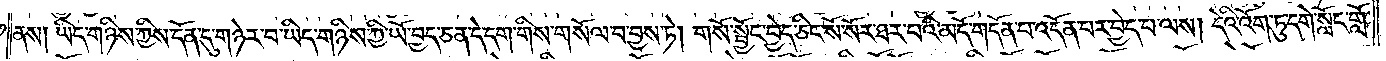ནས། ཡིད་གཉིས་ཀྱིས་དོན་དུ་གཉེར་བ་ཡིད་གཉིས་ཀྱི་ཡོ་བྱད་ཅན་དེ་དག་གིས་གསོལ་བ་བྱས་ཏེ། གསོ་སྦྱོང་བྱེད་ཅིང་སོ་སོར་ཐར་པའི་མདོ་གདོན་པ་འདོན་པར་བྱེད་པ་ལས། དེའི་འོག་ཏུ་དགེ་སློང་གློ་
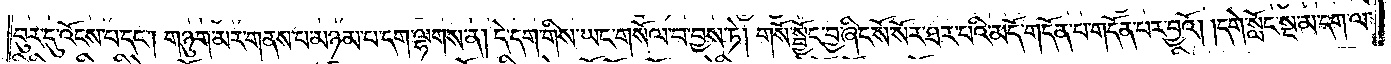བུར་དུ་འོངས་པ་དང༌། གཉུག་མར་གནས་པ་མཉམ་པ་དག་ལྷགས་ན། དེ་དག་གིས་ཡང་གསོལ་བ་བྱས་ཏེ། གསོ་སྦྱོང་བྱ་ཞིང་སོ་སོར་ཐར་པའི་མདོ་གདོན་པ་གདོན་པར་བྱའོ། །དགེ་སློང་སྔ་མ་དག་ལ་
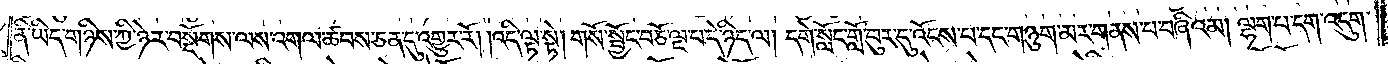ནི་ཡིད་གཉིས་ཀྱི་ཉེར་བསྡོགས་ལས་འགལ་ཚབས་ཅན་དུ་འགྱུར་རོ། །འདི་ལྟ་སྟེ། གསོ་སྦྱོང་བཅོ་ལྔ་པ་དེ་ཉིད་ལ། དགེ་སློང་གློ་བུར་དུ་འོངས་པ་དང་གཉུག་མར་གནས་པ་བཞིའམ། ལྷག་པ་དག་འདུག་
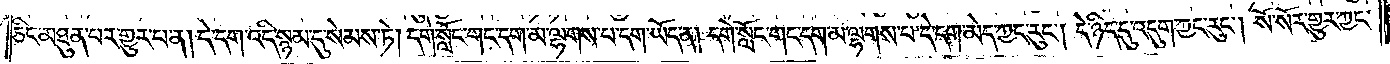ཅིང་མཐུན་པར་གྱུར་པ་ན། དེ་དག་འདི་སྙམ་དུ་སེམས་ཏེ། དགེ་སློང་གང་དག་མ་ལྷགས་པ་དག་ཡོད་ན། དགེ་སློང་གང་དག་མ་ལྷགས་པ་དེ་དག་མེད་ཀྱང་རུང༌། དེ་ཉིད་དུ་འདུག་ཀྱང་རུང༌། སོ་སོར་གྱུར་ཀྱང་
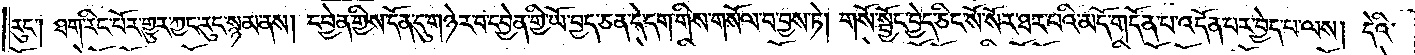རུང༌། ཐག་རིང་པོར་གྱུར་ཀྱང་རུང་སྙམ་ནས། དབྱེན་གྱིས་དོན་དུ་གཉེར་བ་དབྱེན་གྱི་ཡོ་བྱད་ཅན་དེ་དག་གིས་གསོལ་བ་བྱས་ཏེ། གསོ་སྦྱོང་བྱེད་ཅིང་སོ་སོར་ཐར་པའི་མདོ་གདོན་པ་འདོན་པར་བྱེད་པ་ལས། དེའི་
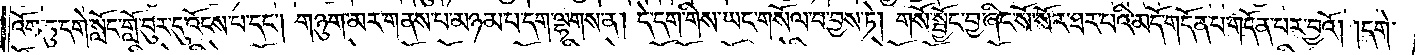འོག་ཏུ་དགེ་སློང་གློ་བུར་དུ་འོངས་པ་དང༌། གཉུག་མར་གནས་པ་མཉམ་པ་དག་ལྷགས་ན། དེ་དག་གིས་ཡང་གསོལ་བ་བྱས་ཏེ། གསོ་སྦྱོང་བྱ་ཞིང་སོ་སོར་ཐར་པའི་མདོ་གདོན་པ་གདོན་པར་བྱའོ། །དགེ་
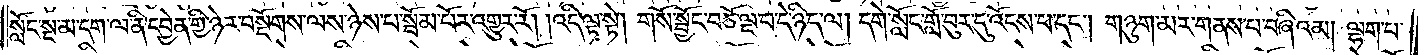སློང་སྔ་མ་དག་ལ་ནི་དབྱེན་གྱི་ཉེར་བསྡོགས་ལས་ཉེས་པ་སྦོམ་པོར་འགྱུར་རོ། །འདི་ལྟ་སྟེ། གསོ་སྦྱོང་བཅོ་ལྔ་པ་དེ་ཉིད་ལ། དགེ་སློང་གློ་བུར་དུ་འོངས་པ་དང༌། གཉུག་མར་གནས་པ་བཞིའམ། ལྷག་པ་
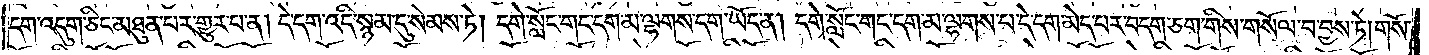དག་འདུག་ཅིང་མཐུན་པར་གྱུར་པ་ན། དེ་དག་འདི་སྙམ་དུ་སེམས་ཏེ། དགེ་སློང་གང་དག་མ་ལྷགས་དག་ཡོད་ན། དགེ་སློང་གང་དག་མ་ལྷགས་པ་དེ་དག་མེད་པར་བདག་ཅག་གིས་གསོལ་བ་བྱས་ཏེ། གསོ་
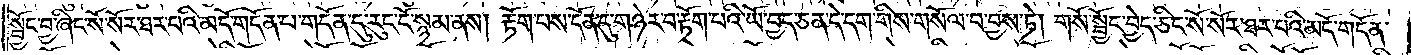སྦྱོང་བྱ་ཞིང་སོ་སོར་ཐར་པའི་མདོ་གདོན་པ་གདོན་དུ་རུང་ངོ་སྙམ་ནས། རྟོག་པས་དོན་དུ་གཉེར་བ་རྟོག་པའི་ཡོ་བྱད་ཅན་དེ་དག་གིས་གསོལ་བ་བྱས་ཏེ། གསོ་སྦྱོང་བྱེད་ཅིང་སོ་སོར་ཐར་བའི་མདོ་གདོན་
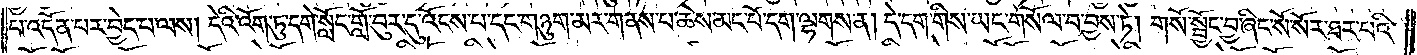པ་འདོན་པར་བྱེད་པ་ལས། དེའི་འོག་ཏུ་དགེ་སློང་གློ་བུར་དུ་འོངས་པ་དང་གཉུག་མར་གནས་པ་ཆེས་མང་པོ་དག་ལྷགས་ན། དེ་དག་གིས་ཡང་གསོལ་བ་བྱས་ཏེ། གསོ་སྦྱོང་བྱ་ཞིང་སོ་སོར་ཐར་པའི་
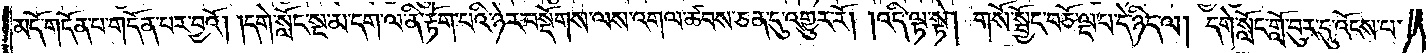མདོ་གདོན་པ་གདོན་པར་བྱའོ། །དགེ་སློང་སྔ་མ་དག་ལ་ནི་རྟོག་པའི་ཉེར་བསྡོགས་ལས་འགལ་ཚབས་ཅན་དུ་འགྱུར་རོ། །འདི་ལྟ་སྟེ། གསོ་སྦྱོང་བཅོ་ལྔ་བ་དེ་ཉིད་ལ། དགེ་སློང་གློ་བུར་དུ་འོངས་པ་
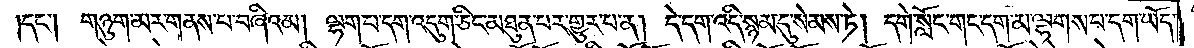།དང༌། གཉུག་མར་གནས་པ་བཞིའམ། ལྷག་པ་དག་འདུག་ཅིང་མཐུན་པར་གྱུར་པ་ན། དེ་དག་འདི་སྙམ་དུ་སེམས་ཏེ། དགེ་སློང་གང་དག་མ་ལྷགས་པ་དག་ཡོད་
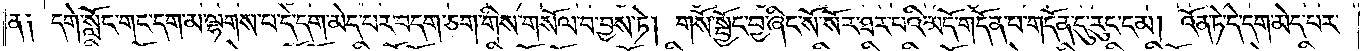ན༏  དགེ་སློང་གང་དག་མ་ལྷགས་པ་དེ་དག་མེད་པར་བདག་ཅག་གིས་གསོལ་བ་བྱས་ཏེ། གསོ་སྦྱོང་བྱ་ཞིང་སོ་སོར་ཐར་པའི་མདོ་གདོན་པ་གདོན་དུ་རུང་ངམ། འོན་ཏེ་དེ་དག་མེད་པར་
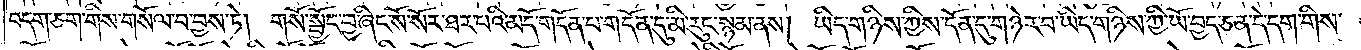བདག་ཅག་གིས་གསོལ་བ་བྱས་ཏེ། གསོ་སྦྱོང་བྱ་ཞིང་སོ་སོར་ཐར་བའི་མདོ་གདོན་པ་གདོན་དུ་མི་རུང་སྙམ་ནས། ཡིད་གཉིས་ཀྱིས་དོན་དུ་གཉེར་བ་ཡིད་གཉིས་ཀྱི་ཡོ་བྱད་ཅན་དེ་དག་གིས་
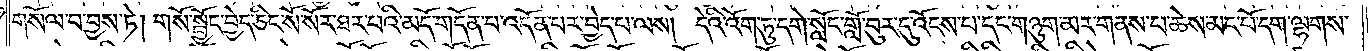གསོལ་བ་བྱས་ཏེ། གསོ་སྦྱོང་བྱེད་ཅིང་སོ་སོར་ཐར་པའི་མདོ་གདོན་པ་འདོན་པར་བྱེད་པ་ལས། དེའི་འོག་ཏུ་དགེ་སློང་གློ་བུར་དུ་འོངས་པ་དང་གཉུག་མར་གནས་པ་ཆེས་མང་པོ་དག་ལྷགས་
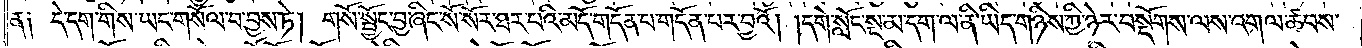ན༑ དེ་དག་གིས་ཡང་གསོལ་བ་བྱས་ཏེ། གསོ་སྦྱོང་བྱ་ཞིང་སོ་སོར་ཐར་པའི་མདོ་གདོན་པ་གདོན་པར་བྱའོ། །དགེ་སློང་སྔ་མ་དག་ལ་ནི་ཡིད་གཉིས་ཀྱི་ཉེར་བསྡོགས་ལས་འགལ་ཚབས་
